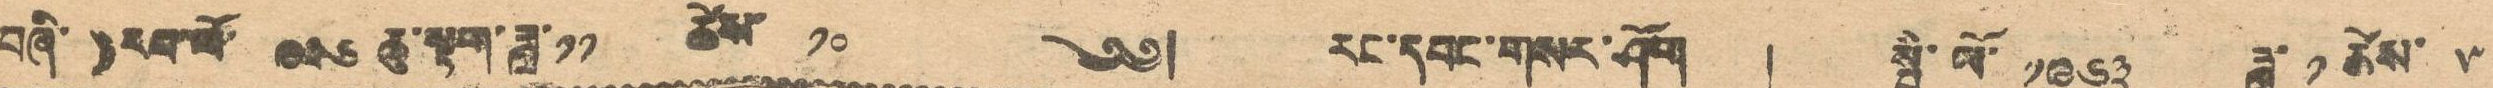བཞི་ ) རབ་ལོ་ ༩༣༦ ཆུ་སྟག་ཟླ་༡༡ ཚེས་ ༡༠ ༄༅། རང་དབང་གསར་ཤོག ། སྤྱི་ལོ་ ༡༩༦༣ ཟླ་ ༡ ཚེས་ ༥
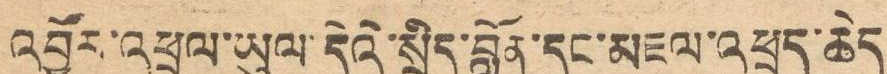འབྱོར་འཕྲལ་ཡུལ་དེའི་སྲིད་བློན་དང་མཇལ་འཕྲད་ཆེད
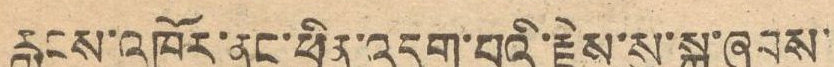རླབས་འཁོར་ནང་ཕྱིན་འདུག་པའི་རྗེས་སུ་སྐུ་ཞབས་
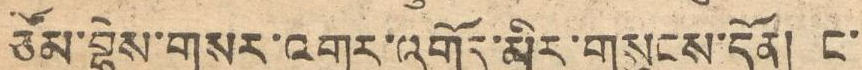ཅོམ་བྷེས་གསར་འགྱུར་འགོད་མིར་གསུངས་དོན། ང་
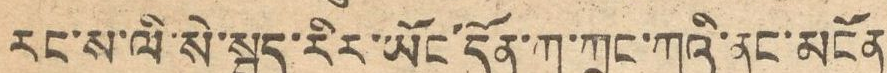རང་ས་ལི་སེ་སྦད་རིང་ཡོང་དོན་ཀ་ཀྲང་ཀའི་ནང་མངོན
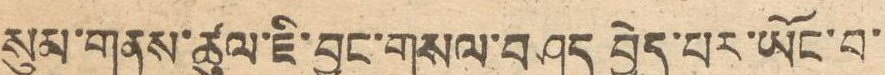སུམ་གནས་ཚུལ་ཇུ་བྱུང་གསལ་བཤད བྱེད་པར་ཡོང་བ་
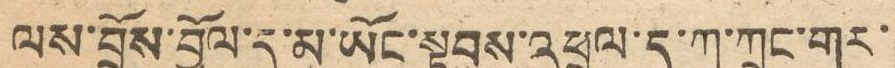ལས་བྲོས་བྱོལ་དུ་མ་ཡོང་སྟབས་འཕྲལ་དུ་ཀ་ཀྲང་གར་
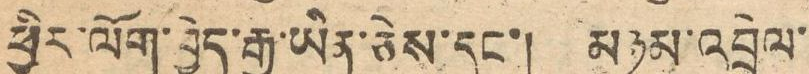ཕྱིར་ལོག་བྱེད་རྒྱུ་ཡིན་ཅེས་དང་། མཉམ་འབྲེལ་
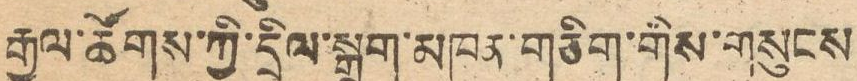རྒྱལ་ཚོགས་ཀྱི་དྲིལ་སྒྲག་མཁན་གཅིག་གིས་གསུངས
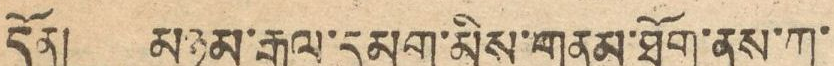དོན། མཉམ་རྒྱལ་དམག་མིས་གནམ་ཐོག་ནས་ཀ་
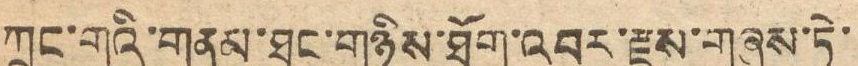ཀྲང་གའི་གནམ་ཐང་གཉིས་ཐོག་འབར་རྫས་གཞུས་ཏེ་
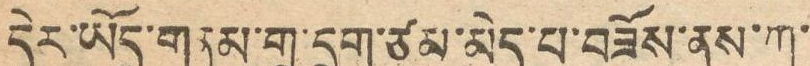དེར་ཡོད་གནམ་གྲུ་དྲུག་ཙམ་མེད་པ་བཟོས་ནས་ཀ་
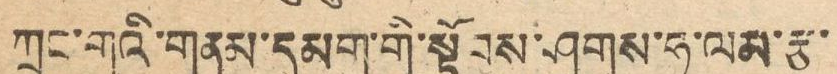ཀྲང་གའི་གནམ་དམག་གི་སྟོབས་ཤུགས་ཧ་ལམ་རྩ་
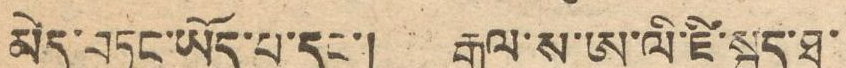མེད་བཏང་ཡོད་པ་དང་། རྒྱལ་ས་ཨ་ལི་ཇི་སྦད་ཐ་
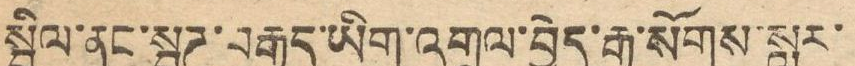སྦིལ་ནང་སྦྲཊ་བརྒྱུད་ཡིག་འགྲུལ་བྱེད་རྒྱུ་སོགས་སླར་
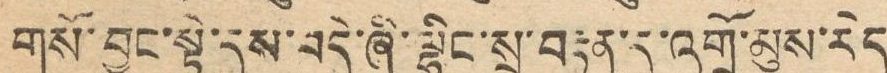གསོ་བྱུང་སྟེ་དུས་བདེ་ཞི་ལྷིང་སྲ་བརྟན་དུ་འགྲོ་མུས་རེད
